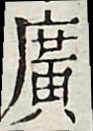廣
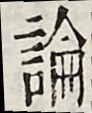論
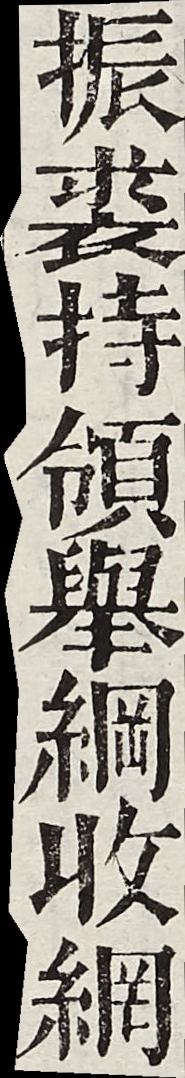振裘持領舉綱收網
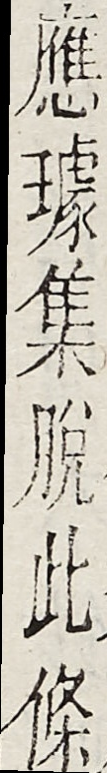應璩集脫此條
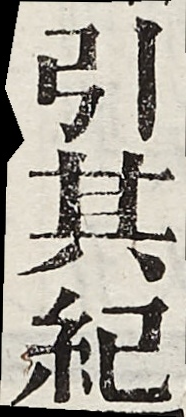引其紀
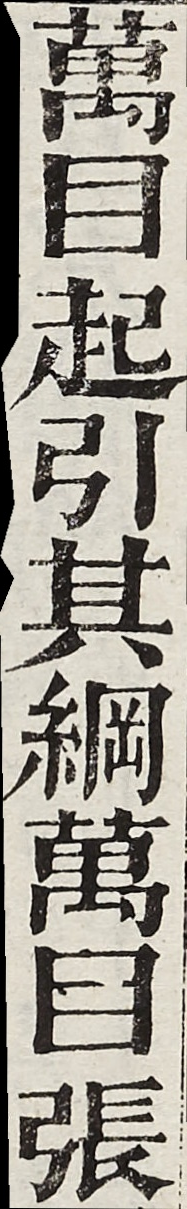萬目起引其綱萬目張
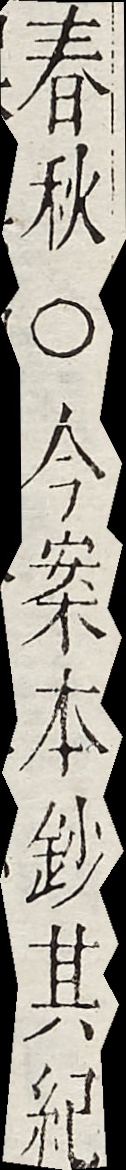春秋○今案本鈔其紀
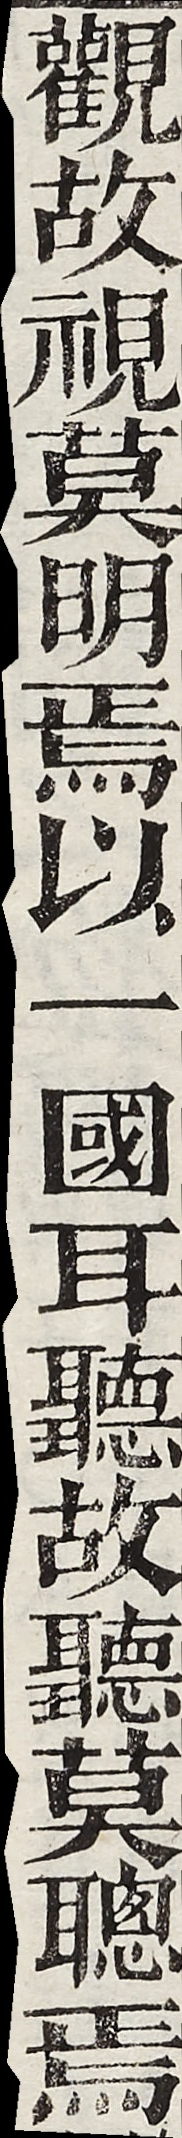觀故視莫明焉以一國耳聽故聽莫聰焉
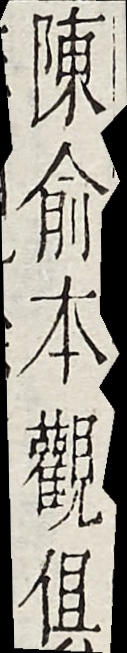陳俞本觀俱
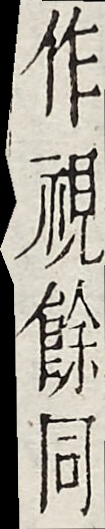作視餘同
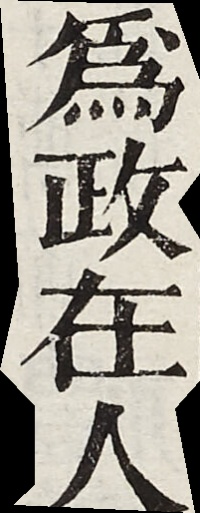為政在人
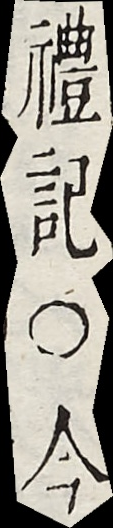禮記○今
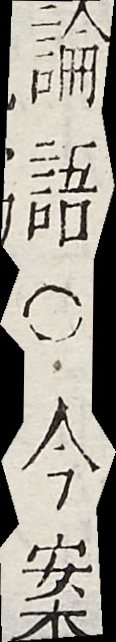論語○今案
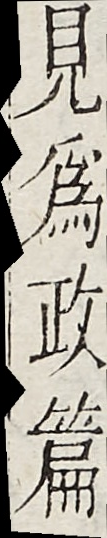見為政篇
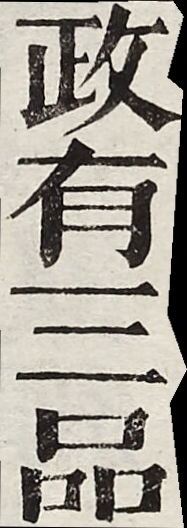政有三品
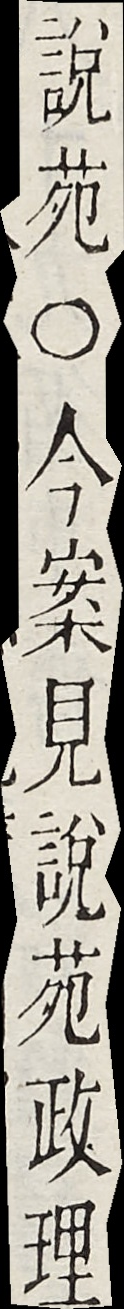說苑○今案見說苑政理
